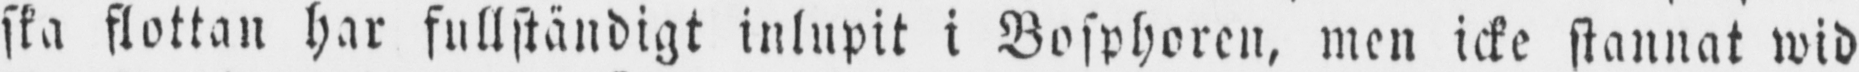ska flottan har fullständigt inlupit i Bosphoren, men icke stannat wid
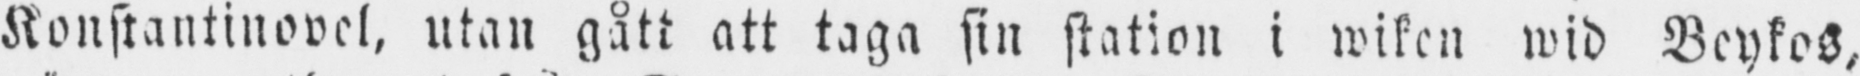Konstantinopel, utan gått att taga sin station i wiken wid Beykos,
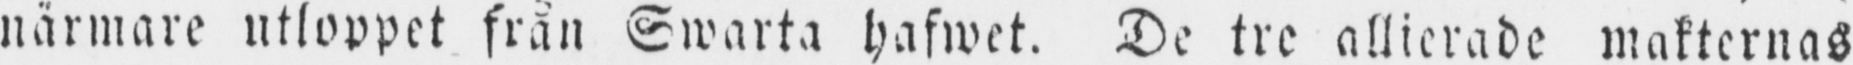närmare utloppet från Swarta hafwet. De tre allierade makternas
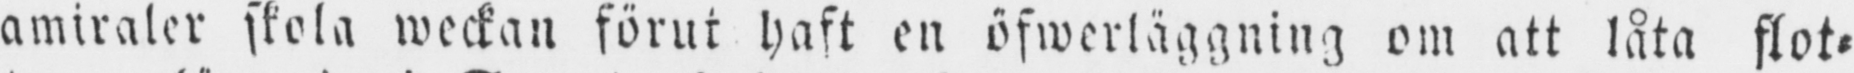amiraler skola weckan förut haft en öfwerläggning om att låta flot-
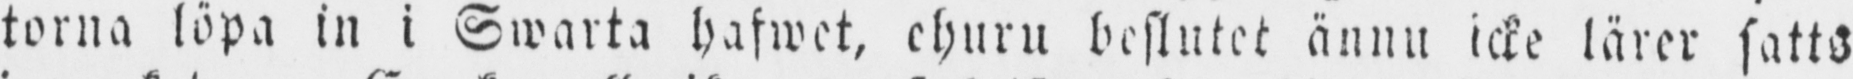torna löpa in i Swarta hafwet, ehuru beslutet ännu icke lärer satts
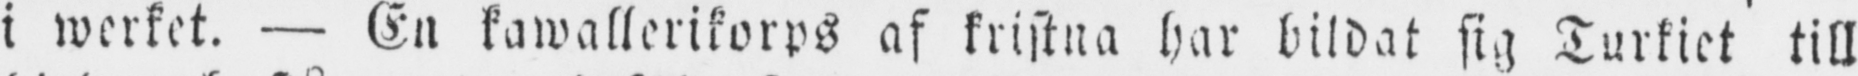i werket. — En kawallerikorps af kristna har bildat sig Turkiet till
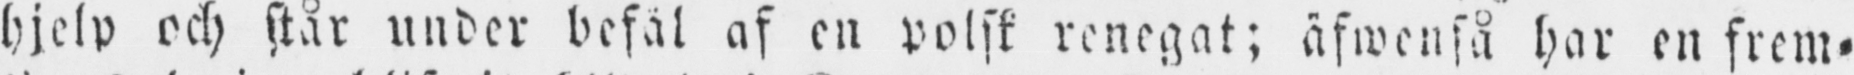hjelp och står under befäl af en polsk renegat; äfwenså har en frem-
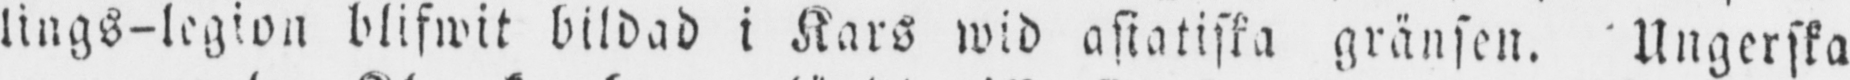lings-legion blifwit bildad i Kars wid asiatiska gränsen. Ungerska
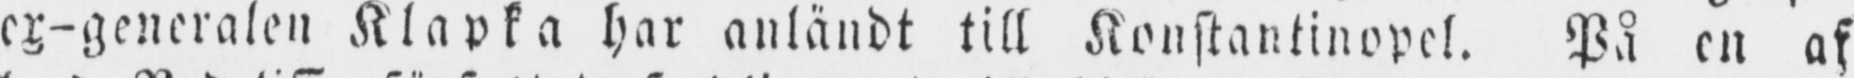ex-generalen Klapka har anländt till Konstantinopel. På en af
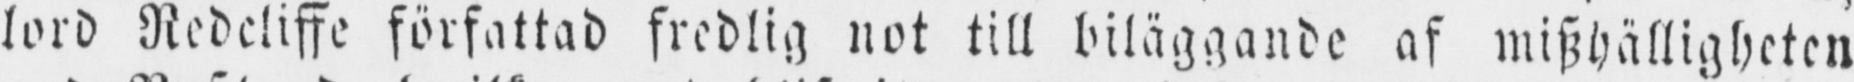lord Redcliffe författad fredlig not till biläggande af miszhälligheten
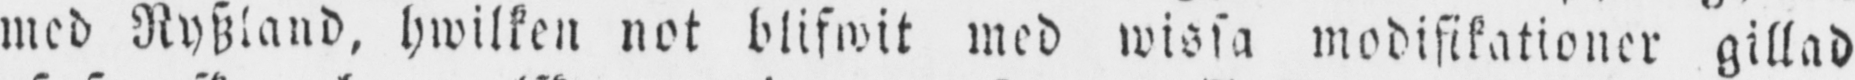med Ryszland, hwilken not blifwit med wissa modifikationer gillad
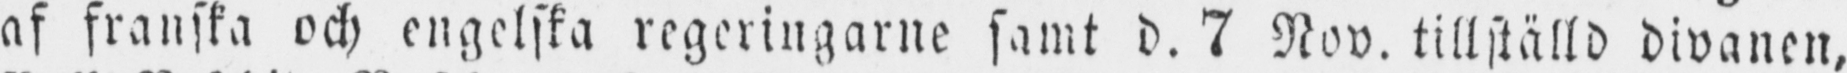af franska och engelska regeringarne samt d. 7 Nov. tillställd divanen,
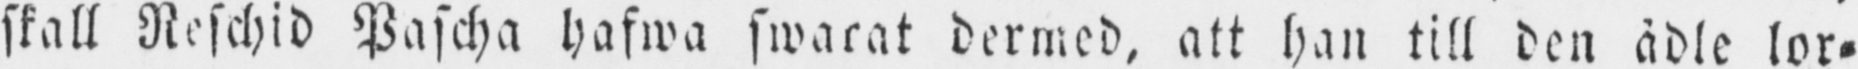skall Neschid Pascha hafwa swarat dermed, att han till den ädle lor-
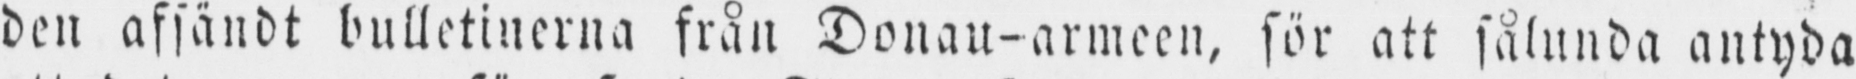den afsändt bulletinerna från Donau-armeen, för att sålunda antyda
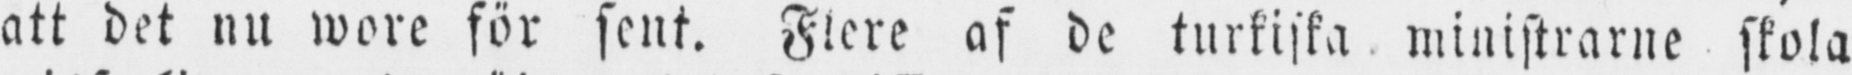att det nu wore för sent. Flere af de turkiska ministrarne skola
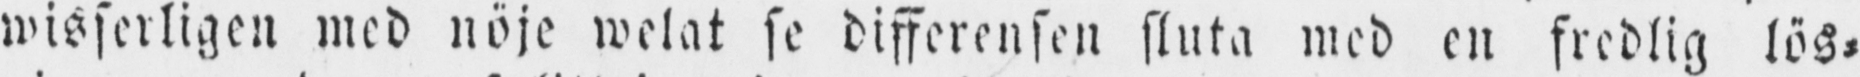wisserligen med nöje welat se differensen sluta med en fredlig lös-
